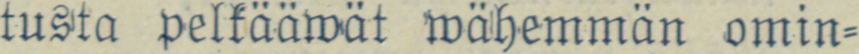tusta pelkääwät wähemmän omin-
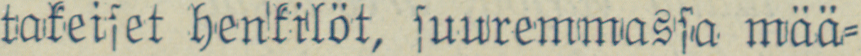takeiset henkilöt, suuremmassa mää-
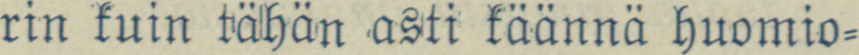rin kuin tähän asti käännä huomio-
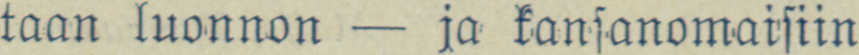taan luonnon — ja kansanomaisiin
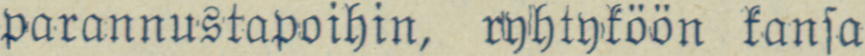parannustapoihin, ryhtyköön kansa
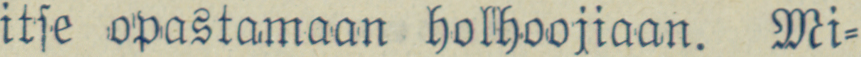itse opastamaan holhoojiaan. Mi-
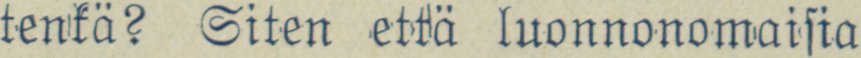tenkä? Siten että luonnonomaisia
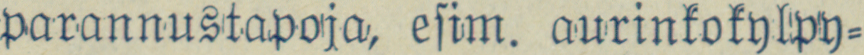parannustapoja, esim. aurinkokylpy-
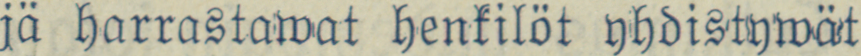jä harrastawat henkilöt yhdistywät
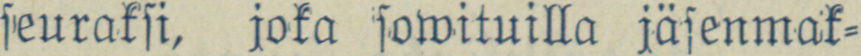seuraksi, joka sowituilla jäsenmak-
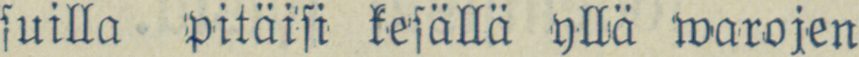suilla pitäisi kesällä yllä warojen
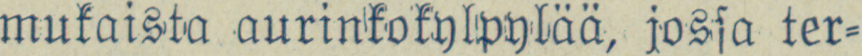mukaista aurinkokylpylää, jossa ter-
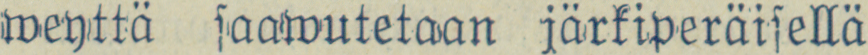weyttä saawutetaan järkiperäisellä
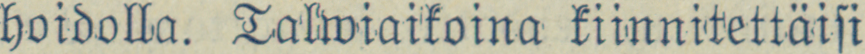hoidolla. Talwiaikoina kiinnitettäisi
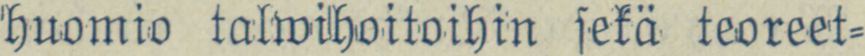huomio talwihoitoihin sekä teoreet-
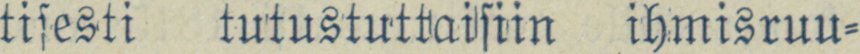tisesti tutustuttaisiin ihmisruu-
